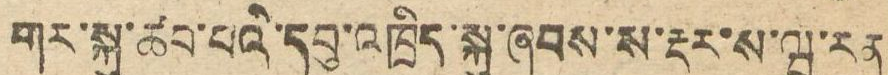གར་སྐུ་ཚབ་པའི་དབུ་འཁྲིད་སྐུ་ཞབས་ས་རྡར་ས་ཝ་རན
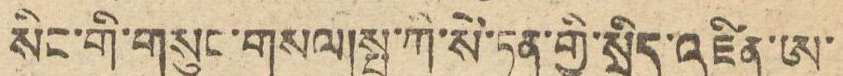སིང་གི་གསུང་གསལ།སྤ་ཀི་སི་ཏན་གྱི་སྲིད་འཛིན་ཨ་
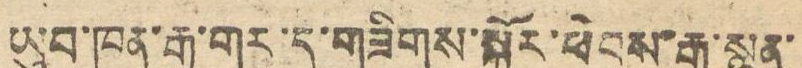ཡུབ་ཁན་རྒྱ་གར་དུ་གཟིགས་སྐོར་ཕེབས་རྒྱུ་སྙན་
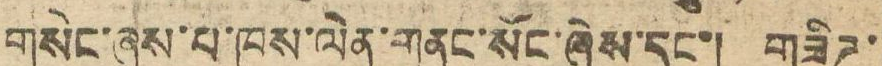གསེང་ཞུས་པ་ཁས་ལེན་གནང་སོང་ཞེས་དང་། གཟིཊ་
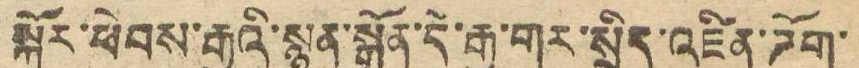སྐོར་ཕེབས་རྒྱུའི་སྙན་སྒྲོན་དེ་རྒྱ་གར་སྲིད་འཛིན་ཌོག་
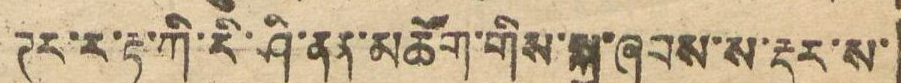ཊར་ར་རྟ་ཀི་རི་ཤི་ནན་མཆོག་གིས་སྐུ་ཞབས་ས་རྡར་ས་
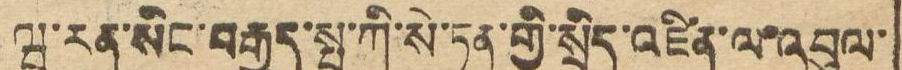ཝ་རན་སིང་བརྒྱུད་སྤ་ཀི་སི་ཏན་གྱི་སྲིད་འཛིན་ལ་འབུལ་
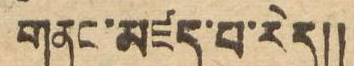གནང་མཛད་པ་རེད།།
